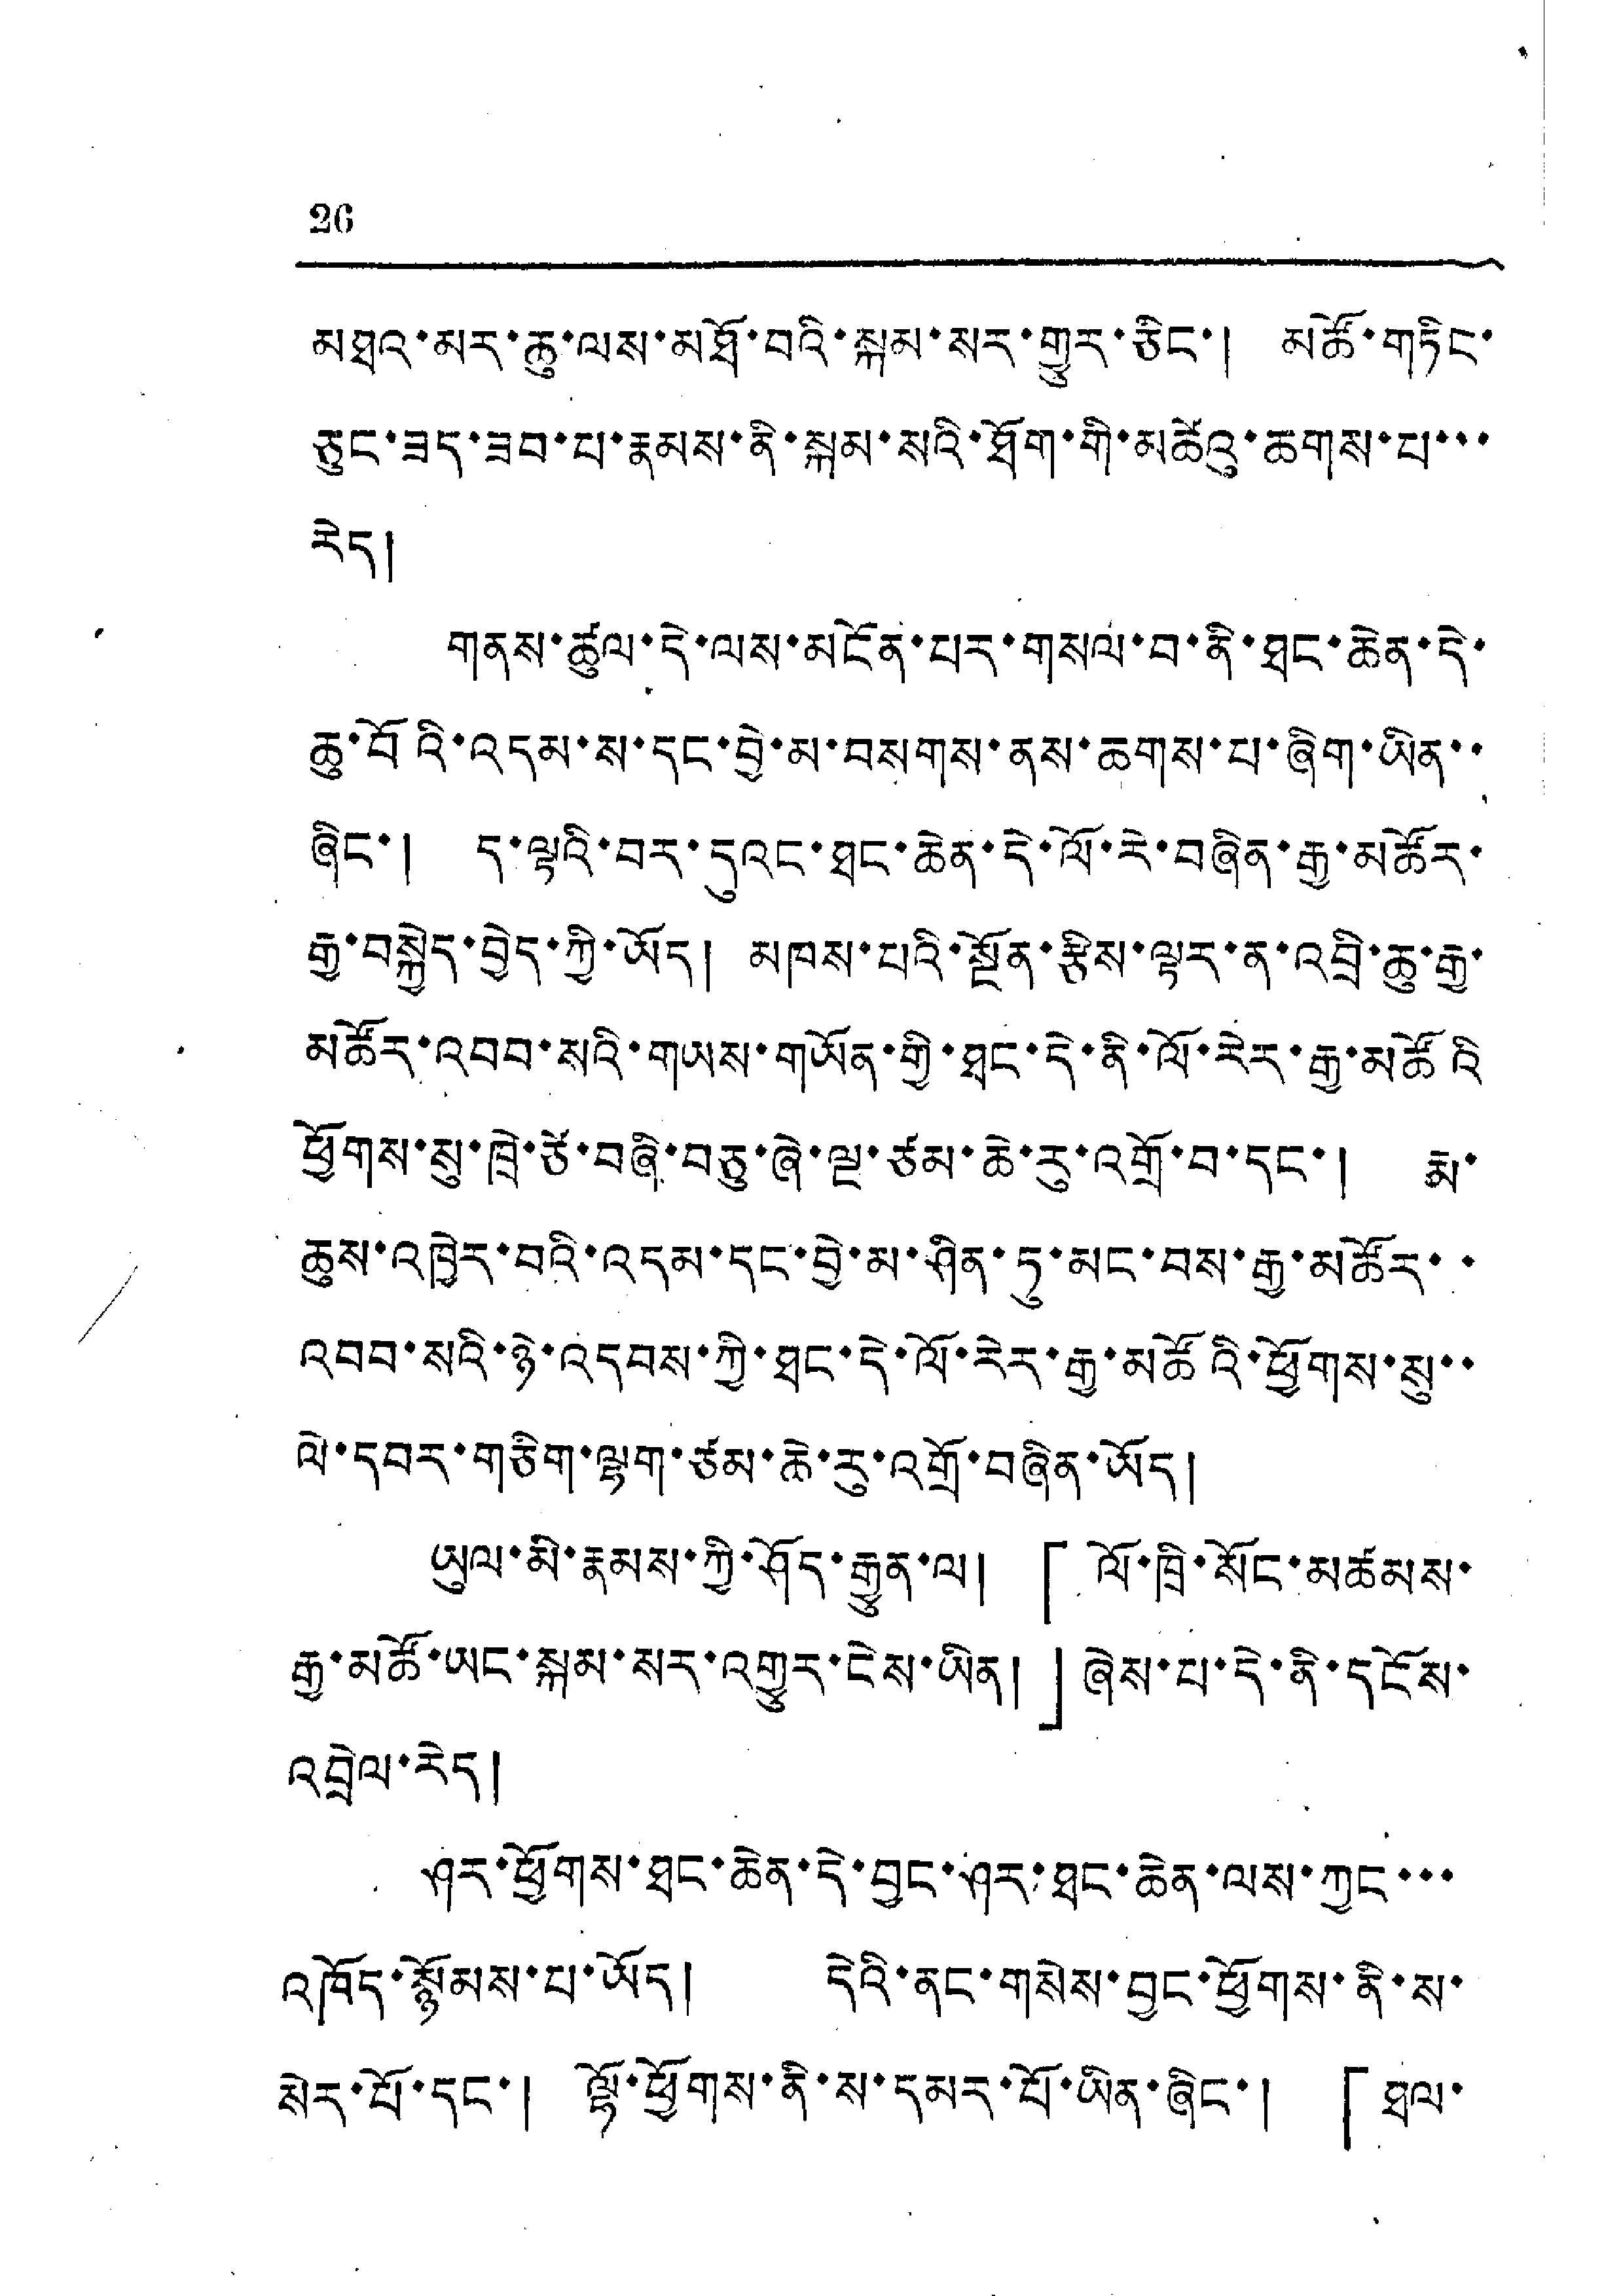26
མཐའ་མར་ཆུ་ལས་མཐོ་བའི་སྐམ་སར་གྱུར་ཅིང་། མཚོ་གཏིང་
ཅུང་ཟད་ཟབ་པ་རྣམས་ནི་སྐམ་སའི་ཐོག་གི་མཚེའུ་ཆགས་པ་་་
རེད།
གནས་ཚུལ་དེ་ལས་མངོན་པར་གསལ་བ་ནི་ཐང་ཆེན་དེ་
ཆུ་བོའི་འདམ་ས་དང་བྱེ་མ་བསགས་ནས་ཆགས་པ་ཞིག་ཡིན་་
ཞིང་། ད་ལྟའི་བར་དུའང་ཐང་ཆེན་དེ་ལོ་རེ་བཞིན་རྒྱ་མཚོར་
རྒྱ་བསྐྱེད་བྱེད་ཀྱི་ཡོད། མཁས་པའི་སྔོན་རྩིས་ལྟར་ན་འབྲི་ཆུ་རྒྱ་
མཚོར་འབབ་སའི་གཡས་གཡོན་གྱི་ཐང་དེ་ནི་ལོ་རེར་རྒྱ་མཚོའི
ཕྱོགས་སུ་ཁྲེ་ཙེ་བཞི་བཅུ་ཞེ་ལྔ་ཙམ་ཆེ་རུ་འགྲོ་བ་དང་། རྨ་
ཆུས་འཁྱེར་བའི་འདམ་དང་བྱེ་མ་ཤིན་ཏུ་མང་བས་རྒྱ་མཚོར་་
འབབ་སའི་ཉེ་འདབས་ཀྱི་ཐུང་དེ་ལོ་རེར་རྒྱ་མཚོའི་ཕྱོགས་སུ་་
ལེ་དབར་གཅིག་ལྷག་ཙམ་ཆེ་རུ་འགྲོ་བཞིན་ཡོད།
ཡུལ་མི་རྣམས་ཀྱི་ཤོད་རྒྱུན་ལ། 「ལོ་ཁྲི་སོང་མཚམས་
རྒྱ་མཚོ་ཡང་སྐམ་སར་འགྱུར་ངེས་ཡིན།」ཞེས་པ་དེ་ནི་དངོས་
འབྲེལ་རེད།
ཤར་ཕྱོགས་ཐང་ཆེན་དེ་བྱང་ཤར་ཐང་ཆེན་ལས་ཀྱང་་་
འཁོད་སྙོམས་པ་ཡོད། དེའི་ནང་གསེས་བྱང་ཕྱོགས་ནི་ས་
སེར་པོ་དང་། ལྷོ་ཕྱོགས་ནི་ས་དམར་པོ་ཡིན་ཞིང་། 「ཐལ་
